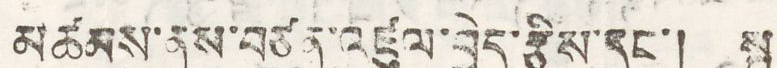མཚམས་ནས་བཙན་འཛུལ་བྱེད་རྩིས་དང་། སྤ
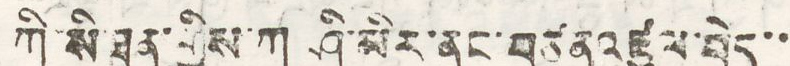ཀི་སི་ཐན་གྱིས་ཀ ཤི་མིར་ནང་བཙན་འཛུལ་བྱེད་་
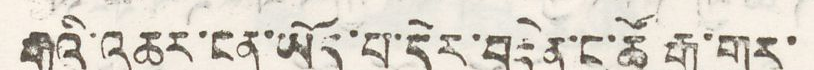རྒྱུའི་འཆར་ངན་ཡོད་པ་དེར་བརྟེན་ང་ཚོ རྒྱ་གར་
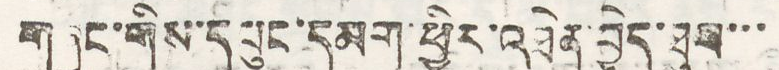གཞུང་གིས་དཔུང་དམག་ཕྱིར་འཐེན་བྱེད་ཐུབ་་་
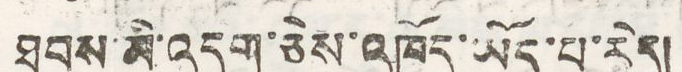ཐབས་མི་འདུག་ཅེས་འཁོད་ཡོད་པ་རེད།
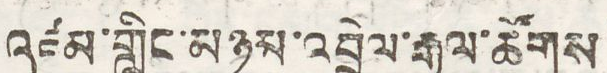འཛམ་གླིང་མཉམ་འབྲེལ་རྒྱལ་ཚོགས
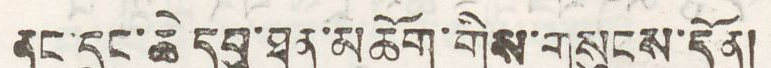ནང་དྲུང་ཆེ་དབུ་ཐན་མཆོག་གིས་གསུངས་དོན།
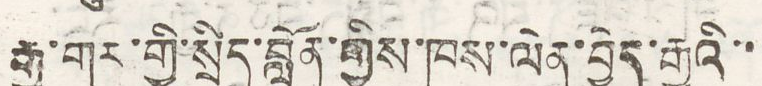རྒྱ་གར་གྱི་སྲིད་བློན་གྱིས་ཁས་ལེན་བྱེད་རྒྱུའི་་
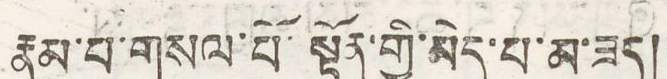རྣམ་པ་གསལ་པོ་སྟོན་གྱི་མེད་པ་མ་ཟད།
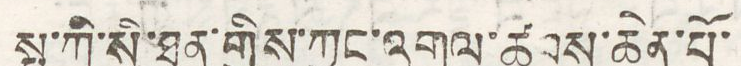སྤ་ཀི་སི་ཐན་ཀྱིས་ཀྱང་འགལ་ཚབས་ཆེན་པོ་
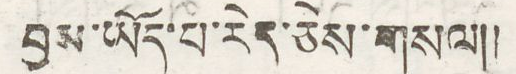བྱས་ཡོད་པ་རེད་ཅེས་གསལ།།
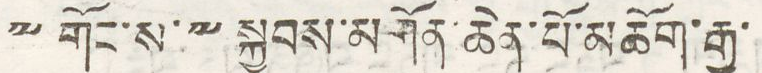༸གོང་ས་༸སྐྱབས་མགོན་ཆེན་པོ་མཆོག་རྒྱ་
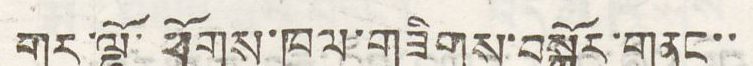གར་ལྷོ་ཕྱོགས་ཁུལ་གཟིགས་བསྐོར་གནང་་
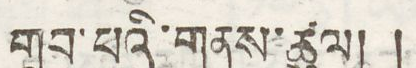གྲུབ་པའི་གནས་ཚུལ། །
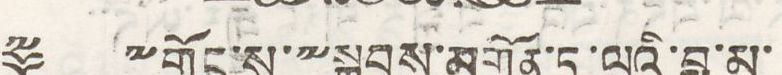༈ ༸གོང་ས་༸སྐྱབས་མགོན་ཏཱ་ལའི་བླ་མ་
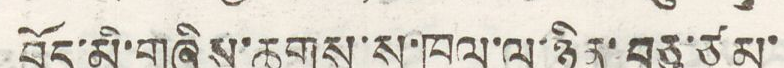བོད་མི་གཞིས་ཆགས་ས་ཁུལ་ལ་ཉིན་བཅུ་ཙམ་
